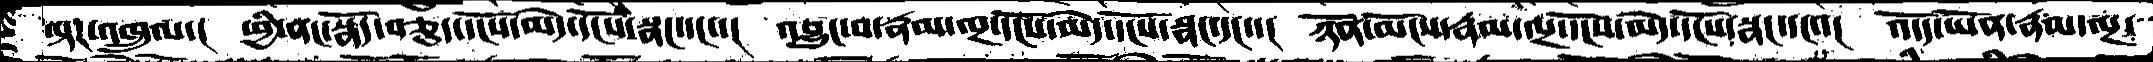ལྟར་འཁྲུལ་། ཕྱི་ནང་སྣོད་བཅུད་དངོས་མེད་དངོས་སྣང་དང་་། འབྱུང་བ་རྣམ་ལྔ་དངོས་མེད་དངོས་སྣང་དང་་། ཉོན་མོངས་རྣམ་ལྔ་དངོས་མེད་དངོས་སྣང་དང་་། འདོད་ཡོན་རྣམ་ལྔ་
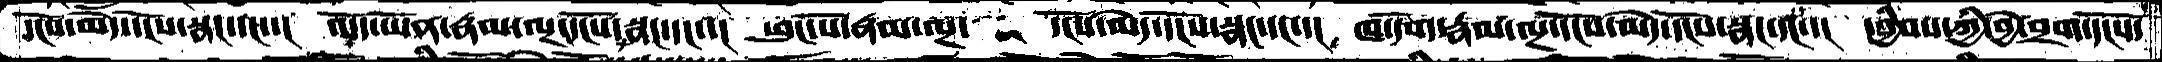དངོས་མེད་དངོས་སྣང་དང་་།  འདོད་ཡོན་རྣམ་ལྔ་དངོས་སྣང་དང་་།  ཕུང་པོ་རྣམ་ལྔ་    དངོས་མེད་དངོས་སྣང་དང་་།  ཁ་དོག་རྣམ་ལྔ་དངོས་མེད་དངོས་སྣང་དང་་།  དབྱིབས་ཀྱི་བྱེ་བྲག་དངོས་
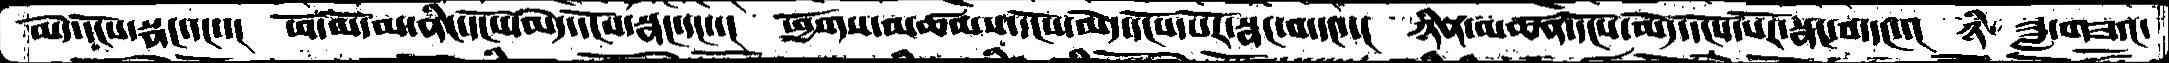མེད་དངོས་སྣང་དང་་།  ཕོ་མོ་མ་ནིང་དངོས་མེད་དངོས་དངོས་སྣང་དང་་།  ཕྱོགས་མཚམས་དངོས་མེད་དངོས་པོར་སྣང་བ་དང་་།  ཉིན་མཚན་དངོས་མེད་དངོས་པོར་སྣང་བ་དང་་། ཉི་ ཟླ་གཟའ་
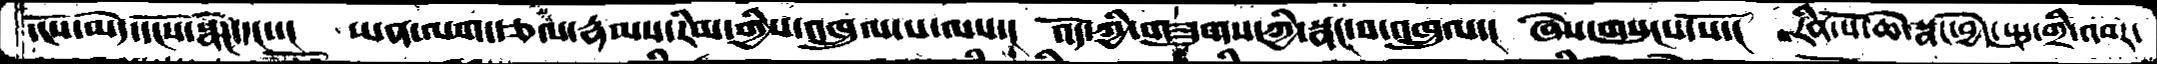དངོས་མེངད་དངོས་སྣང་དང་་།  ཡན་ལག་རྩལ་རྣམས་རིམ་གྱིས་འཁྲུལ་པ་ལས་།  འོད་ཀྱི་གཟུགས་ཀྱི་སྣང་བ་འཁྲུལ་།  ཞེས་གསུངས་སོ་།  རིན་པོ་ཆེ་སྣང་བྱེད་སྤུ་གྲི་འབར་།
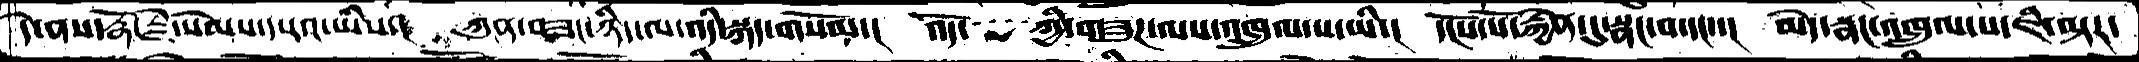དེ་ནས་རྡོ་རྗེ་སེམས་དཔའ་ཡིས་།  ཀུན་བཟང་ཉིད་ལ་འདི་སྐད་གསོལ་།  འོད་    ཀྱི་གཟུཌ་ལས་འཁྲུལ་པ་ཡི་།  དངོས་པོ་རྐྱེན་དུ་སྣང་བ་དང་་། མེད་སྣང་འཁྲུལ་པ་ཇི་ལྟར་
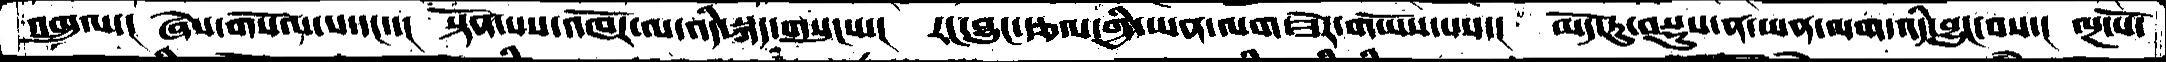འཁྲུལ་།  ཞེས་གསོལ་པ་དང་་།  སྟོན་པས་འཁོར་ལ་འདི་སྐད་གསུངས་།  རང་བྱུང་རྩལ་གྱི་ཡན་ལག་ཟེར་གཡོས་པས་།  མདོ་རུ་བསྡུས་ན་ཡན་ལག་འདི་བྱུང་བས་།  ལྔ་པོ་
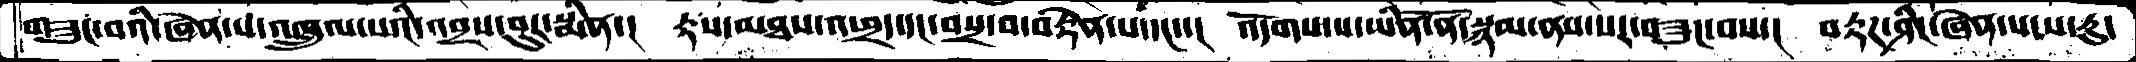གཟུང་བའི་ཞེན་པ་འཁྲུལ་པའི་འབྲས་བུར་སྨིན་།  རྟས་མཐས་འཕྲད་དང་བསྲ་བ་བརྟེན་པ་དང་་།  འདོགས་པ་ཡིན་ནོ་སྙམ་ནས་སར་བཟུང་བས་།  བརྟཌ་ཤིང་ཞེན་པ་ས་རུ་
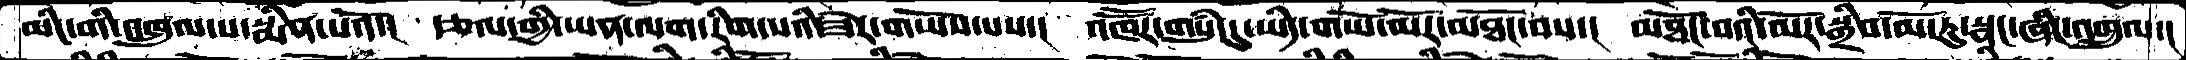མིང་གི་འཁྲུལ་པ་སྨིན་པའོ་།  རྩལ་གྱི་ཡན་ལག་རིག་པའི་ཟེར་གཡོས་པས་།  འཁཽར་གསུཾ་དུ་ཡིད་གཡོ་མོར་མཐོང་བས་།  མཐོང་བའི་མོར་སྒྲིབ་མོ་རུ་སྣང་ཞིང་འཁྲུལ་།
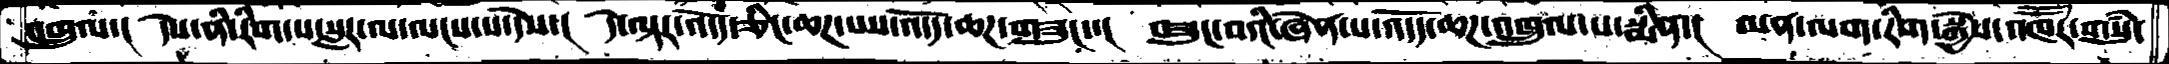འཁྲུལ་།  དེས་ནི་རིག་པ་སླར་ལ་ལངས་པ་དེས་།  དེ་ལྟར་འདོད་ཅིང་ཆཌ་པས་འོདད་ཆཌ་གཟུང་་།  བཟུང་བའི་ཞེན་པ་འདོད་ཆཌ་འཁྲུལ་པ་སྨིན་།  ཡན་ལག་རིག་སྐྱེས་འཁཽར་གསུཾ་།
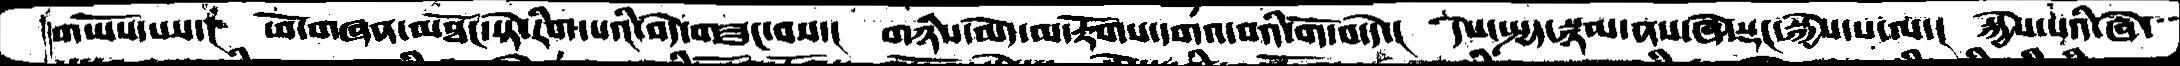གཡོས་པས་།  ཕོ་གཞན་མཐོང་སྟེ་རིག་པའི་བདེ་གཟུང་བས་།  གཉིས་མེད་མ་རྟོགས་དགའ་བའི་གོ་བ་དེ་།  དེས་སྤྱད་རྙམ་ནས་ཞེ་སྡང་སྐྱེས་པ་ལ་།  སྐྱེས་པའི་ཞེ་
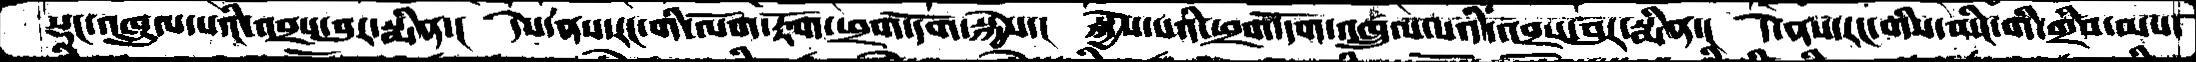སྡང་འཁྲུལ་པའི་འབྲས་བུར་སྨིན་།  དེས་ནས་རང་གི་ལོག་རྟོག་ཕྲག་དོག་སྐྱེས་།  སྐྱེས་པའི་ཕྲག་དོག་འཁྲུལ་པའི་འབྲས་བུར་སྨིན་།  དེ་ནས་རང་གིས་མིང་གི་གྲིབ་མས་
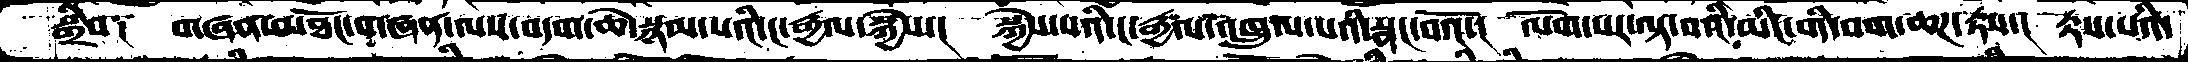སྒྲིབ༑  གཞན་མཐོང་གཞན་ལས་བདག་ཆེ་སྙམ་པའི་ང་རྒྱལ་སྐྱེས་།  སྐྱེས་པའི་ང་རྒྱལ་འཁྲུལ་པའི་སྣང་བའོ་།  ལོག་པར་ལྟ་བའི་མིང་གི་བག་ཆཌ་རྟས་།  རྟས་པའི་
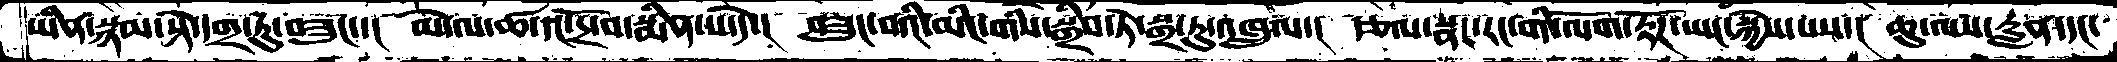ཡིན་སྙམ་སྟེ་དགྲ་རུ་བཟུང་་།  མེ་ལ་ཚ་དང་དྲོ་བ་སྨིན་པ་དེ་།  བཟུང་བའི་མིང་གིས་སྒྲིབ་ཏེ་སྒྲ་རུ་འཁྲུལ་།  རྩལ་སྣང་རང་གི་ལོག་རྟོཌ་ཡང་སྐྱེས་པས་།  ཆུ་ལས་རླན་དང་
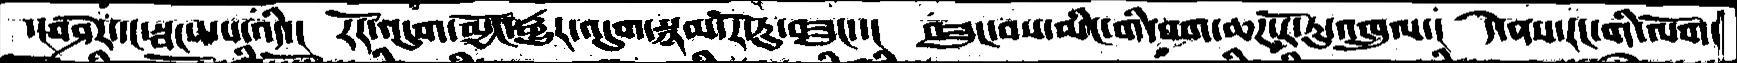་།བཤེར་དང་སྦངས་པ་འདི་།  རོར་འདུག་མྱོང་རྒྱུར་འདུག་སྙམ་རོ་རུ་བཟུང་་།  བཟུང་བས་མིང་གི་བག་ཆཌ་རོ་རུ་འཁྲུལ་།  དེ་ནས་རང་གི་ལོག་
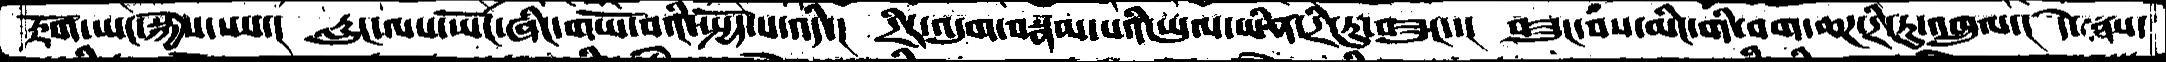རྟོག་ཡང་སྐྱེས་པས་།  རླུང་ལས་ཡོང་ཞིང་གཡོ་བའི་སྤྱོད་པ་འདི་།  དྲིར་འདུག་བསྣམ་པའི་ཡུལ་ཡིན་དྲི་རུ་བཟུང་་།  བཟུང་བས་མིང་གི་བག་ཆཌ་དྲི་རུ་འཁྲུལ་།  དེ་ནས་
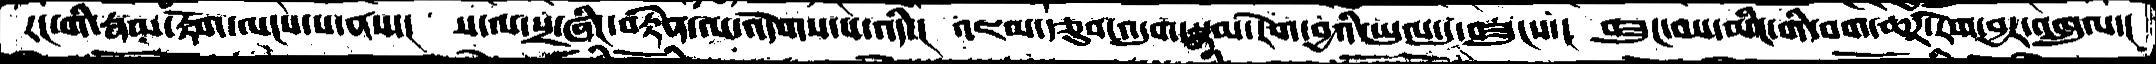རང་གི་རྣམ་རྟོག་ལངས་པ་ནས་།  ས་ལ་སྲ་ཞིང་བརྟེན་ལ་འདེགས་པ་འདི་།  འཇམ་རྩུབ་འདུག་སྙམ་རེག་བྱའི་ཡུལ་དུ་བཟུངས་།  བཟུང་བས་མིང་གི་བག་ཆཌ་རེག་བྱར་འཁྲུལ་།
